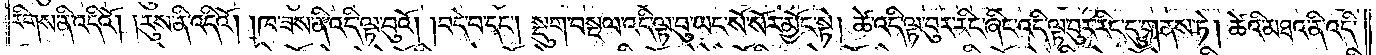རིགས་ནི་འདིའོ། །རུས་ནི་འདིའོ། །ཁ་ཟས་ནི་འདི་ལྟ་བུའོ། །བདེ་བ་དང༌། སྡུག་བསྔལ་འདི་ལྟ་བུ་ཡང་སོ་སོར་མྱོང་སྟེ། ཚེ་འདི་ལྟ་བུར་རིང་ཞིང་འདི་ལྟ་བུར་རིང་དུ་གནས་ཏེ། ཚེའི་མཐའ་ནི་འདི་
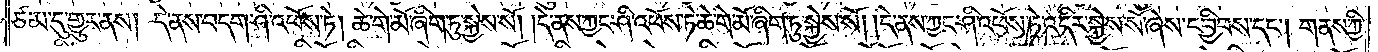ཙམ་དུ་གྱུར་ནས། དེ་ནས་བདག་ཤི་འཕོས་ཏེ། ཆེ་གེ་མོ་ཞིག་ཏུ་སྐྱེས་སོ། །དེ་ནས་ཀྱང་ཤི་འཕོས་ཏེ་ཆེ་གེ་མོ་ཞིག་ཏུ་སྐྱེས་སོ། །དེ་ནས་ཀྱང་ཤི་འཕོས་ཏེ་འདིར་སྐྱེས་སོ་ཞེས་དབྱིབས་དང༌། གནས་ཀྱི་
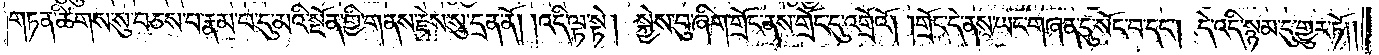གཏན་ཚིགས་སུ་བཅས་པ་རྣམ་པ་དུ་མའི་སྔོན་གྱི་གནས་རྗེས་སུ་དྲན་ནོ། །འདི་ལྟ་སྟེ། སྐྱེས་བུ་ཞིག་གྲོང་ནས་གྲོང་དུ་འགྲོའོ། །གྲོང་དེ་ནས་ཡང་གཞན་དུ་སོང་བ་དང༌། དེ་འདི་སྙམ་དུ་གྱུར་ཏོ། །
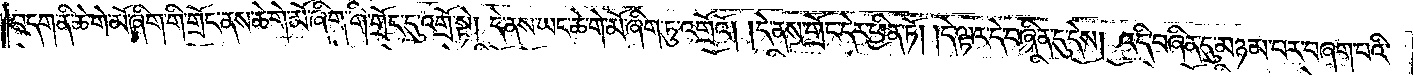བདག་ནི་ཆེ་གེ་མོ་ཞིག་གི་གྲོང་ནས་ཆེ་གེ་མོ་ཞིག་གི་གྲོང་དུ་འགྲོ་སྟེ། དེ་ནས་ཡང་ཆེ་གེ་མོ་ཞིག་ཏུ་འགྲོའོ། །དེ་ནས་གྲོང་དེར་ཕྱིན་ཏོ། །དེ་ལྟར་དེ་བཞིན་དུ་དེས། འདི་བཞིན་དུ་མཉམ་པར་བཞག་པའི་
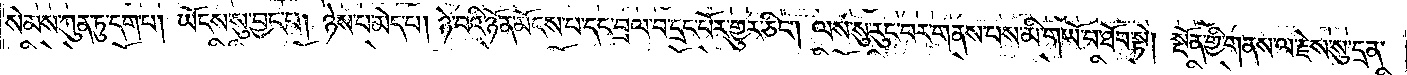སེམས་ཀུན་ཏུ་དག་པ། ཡོངས་སུ་བྱང་བ། ཉེས་པ་མེད་པ། ཉེ་བའི་ཉོན་མོངས་པ་དང་བྲལ་བ་དྲང་པོར་གྱུར་ཅིང༌། ལས་སུ་རུང་བར་གནས་པས་མི་གཡོ་བ་ཐོབ་སྟེ། སྔོན་གྱི་གནས་ལ་རྗེས་སུ་དྲན་
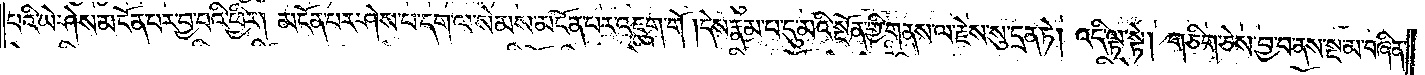པའི་ཡེ་ཤེས་མངོན་པར་བྱ་བའི་ཕྱིར། མངོན་པར་ཤེས་པ་དག་ལ་སེམས་མངོན་པར་འཇུག་གོ །དེས་རྣམ་པ་དུ་མའི་སྔོན་གྱི་གནས་ལ་རྗེས་སུ་དྲན་ཏེ། འདི་ལྟ་སྟེ། གཅིག་ཅེས་བྱ་བ་ནས་སྔ་མ་བཞིན་
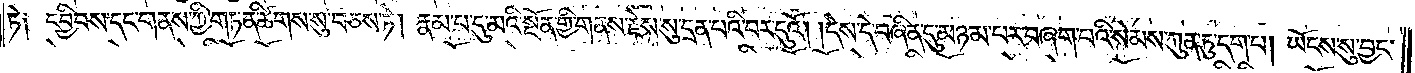ཏེ། དབྱིབས་དང་གནས་ཀྱི་གཏན་ཚིགས་སུ་བཅས་ཏེ། རྣམ་པ་དུ་མའི་སྔོན་གྱི་གནས་རྗེས་སུ་དྲན་པའི་བར་དུའོ། །དེས་དེ་བཞིན་དུ་མཉམ་པར་བཞག་པའི་སེམས་ཀུན་ཏུ་དག་པ། ཡོངས་སུ་བྱང་
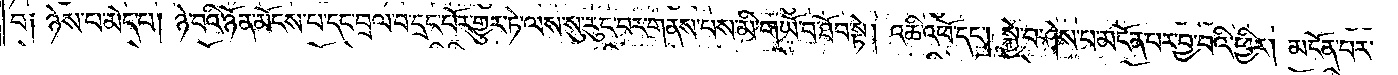བ། ཉེས་པ་མེད་པ། ཉེ་བའི་ཉོན་མོངས་པ་དང་བྲལ་བ་དྲང་པོར་གྱུར་ཏེ་ལས་སུ་རུང་བར་གནས་པས་མི་གཡོ་བ་ཐོབ་སྟེ། འཆི་འཕོ་དང༌། སྐྱེ་བ་ཤེས་པ་མངོན་པར་བྱ་བའི་ཕྱིར། མངོན་པར་
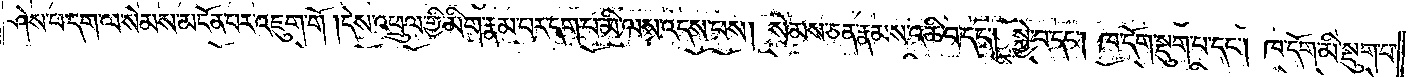ཤེས་པ་དག་ལ་སེམས་མངོན་པར་འཇུག་གོ །དེས་འཕྲུལ་གྱི་མིག་རྣམ་པར་དག་པ་མི་ལས་འདས་པས། སེམས་ཅན་རྣམས་འཆི་བ་དང༌། སྐྱེ་བ་དང༌། ཁ་དོག་སྡུག་པ་དང༌། ཁ་དོག་མི་སྡུག་པ་
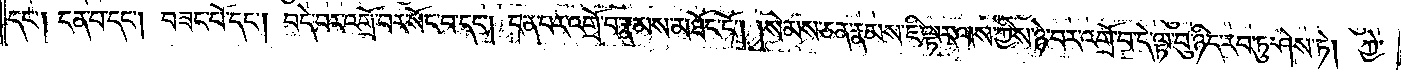དང༌། ངན་པ་དང༌། བཟང་པོ་དང༌། བདེ་བར་འགྲོ་བར་སོང་བ་དང༌། ངན་པར་འགྲོ་བ་རྣམས་མཐོང་ངོ༌། །སེམས་ཅན་རྣམས་ཇི་ལྟར་ལས་ཀྱིས་ཉེ་བར་འགྲོ་བ་དེ་ལྟ་བུ་ཉིད་རབ་ཏུ་ཤེས་ཏེ། ཀྱེ་
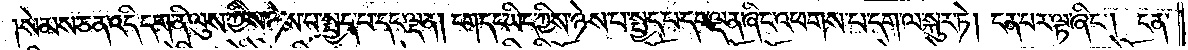སེམས་ཅན་འདི་དག་ནི་ལུས་ཀྱིས་ཉེས་པ་སྤྱད་པ་དང་ལྡན། ངག་དང་ཡིད་ཀྱིས་ཉེས་པ་སྤྱད་པ་དང་ལྡན་ཞིང་འཕགས་པ་དག་ལ་སྐུར་ཏེ། ངན་པར་ལྟ་ཞིང༌། ངན་
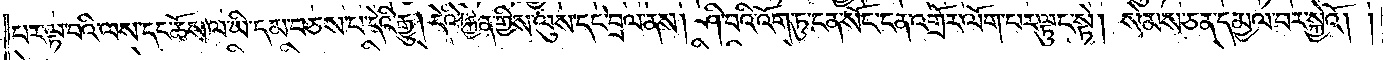པར་ལྟ་བའི་ལས་དང་ཆོས་ལ་ཡི་དམ་བཅས་པ་དེའི་རྒྱུ། དེའི་རྐྱེན་གྱིས་ལུས་དང་བྲལ་ནས། ཤི་བའི་འོག་ཏུ་ངན་སོང་ངན་འགྲོར་ལོག་པར་ལྟུང་སྟེ། སེམས་ཅན་དམྱལ་བར་སྐྱེའོ། །
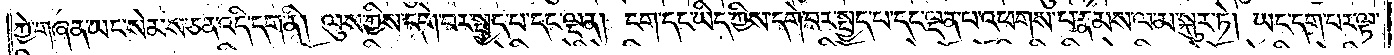ཀྱེ་གཞན་ཡང་སེམས་ཅན་འདི་དག་ནི། ལུས་ཀྱིས་དགེ་བར་སྤྱད་པ་དང་ལྡན། ངག་དང་ཡིད་ཀྱིས་དགེ་བར་སྤྱད་པ་དང་ལྡན་པ་འཕགས་པ་རྣམས་ལ་མ་སྐུར་ཏེ། ཡང་དག་པར་ལྟ་
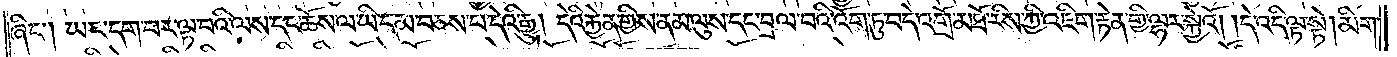ཞིང༌། ཡང་དག་པར་ལྟ་བའི་ལས་དང་ཆོས་ལ་ཡི་དམ་བཅས་པ་དེའི་རྒྱུ། དེའི་རྐྱེན་གྱིས་ནམ་ལུས་དང་བྲལ་བའི་འོག་ཏུ་བདེ་འགྲོ་མཐོ་རིས་ཀྱི་འཇིག་རྟེན་གྱི་ལྷར་སྐྱེའོ། །དེ་འདི་ལྟ་སྟེ། མིག་
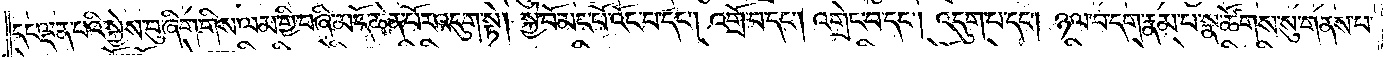དང་ལྡན་པའི་སྐྱེས་བུ་ཞིག་གིས་ལམ་གྱི་བཞི་མདོ་ཆེན་པོར་འདུག་སྟེ། སྐྱེ་བོ་མང་པོ་འོང་བ་དང༌། འགྲོ་བ་དང༌། འགྲེང་བ་དང༌། འདུག་པ་དང༌། ཉལ་བ་དག་རྣམ་པ་སྣ་ཚོགས་སུ་གནས་པ་
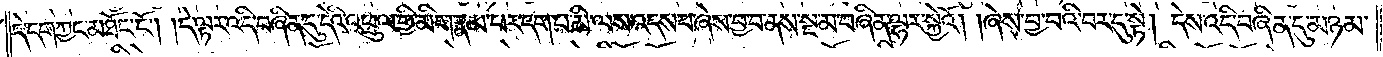དེ་དག་ཀྱང་མཐོང་ངོ༌། །དེ་ལྟར་འདི་བཞིན་དུ་དེའི་འཕྲུལ་གྱི་མིག་རྣམ་པར་དག་པ་མི་ལས་འདས་པ་ཞེས་བྱ་བ་ནས་སྔ་མ་བཞིན་ལྷར་སྐྱེའོ། །ཞེས་བྱ་བའི་བར་དུ་སྟེ། དེས་འདི་བཞིན་དུ་མཉམ་
